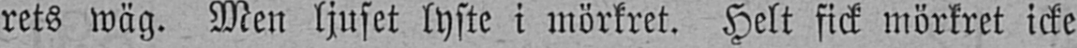rets wäg. Men ljuset lyste i mörkret. Helt fick mörkret icke
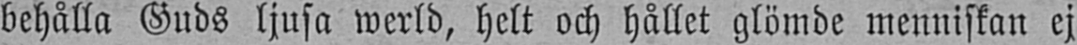behålla Guds ljusa werld, helt och hållet glömde menniskan ej
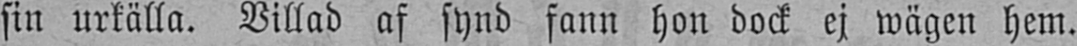sin urkälla. Villad af synd fann hon dock ej wägen hem.
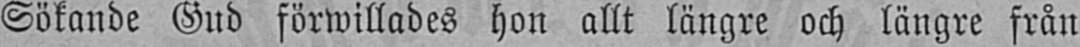Sökande Gud förwillades hon allt längre och längre från
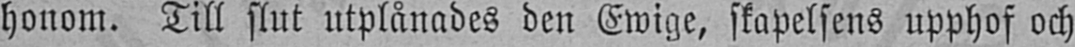honom. Till slut utplånades den Ewige, skapelsens upphof och
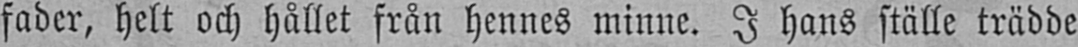fader, helt och hållet från hennes minne. I hans ställe trädde
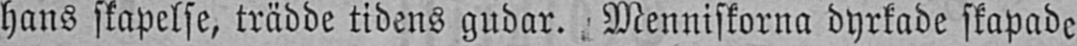hans skapelse, trädde tidens gudar. Menniskorna dyrkade skapade
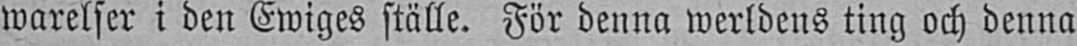warelser i den Ewiges ställe. För denna werldens ting och denna
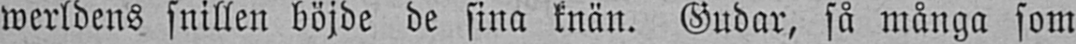werldens snillen böjde de sina knän. Gudar, så många som
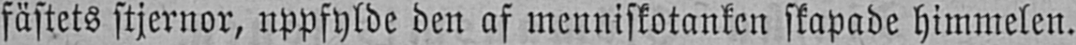fästets stjernor, uppfylde den af menniskotanken skapade himmelen.
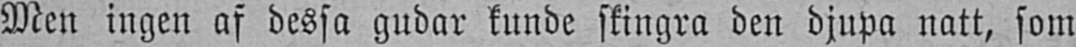Men ingen af dessa gudar kunde skingra den djupa natt, som
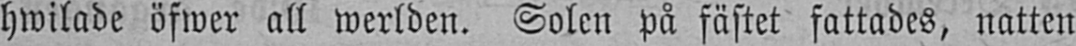hwilade öfwer all werlden. Solen på fästet fattades, natten
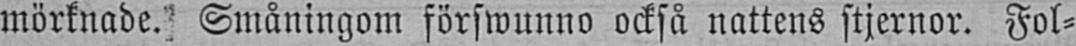mörknade. Småningom förswunno också nattens stjernor. Fol-
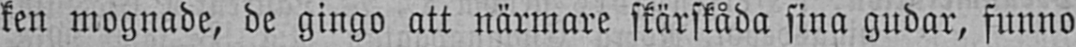ken mognade, de gingo att närmare skärskåda sina gudar, funno
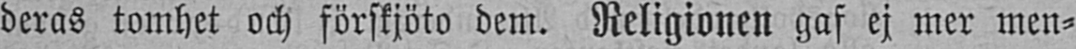deras tomhet och förskjöto dem. Religionen gaf ej mer men-
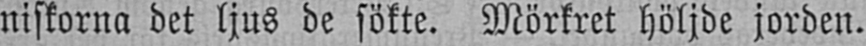niskorna det ljus de sökte. Mörkret höljde jorden.
